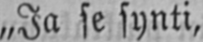„Ja se synti,
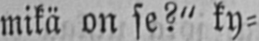mikä on se?" ky-
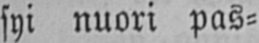syi nuori pas-
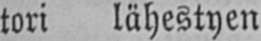tori lähestyen
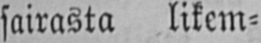sairasta likem-
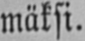mäksi.
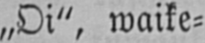„Oi", waike-
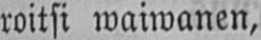roitsi waiwanen,
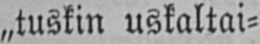„tuskin uskaltai-
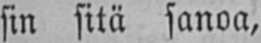sin sitä sanoa,
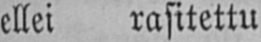ellei rasitettu
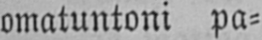omatuntoni pa-
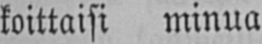koittaisi minua
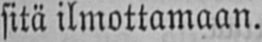sitä ilmottamaan.
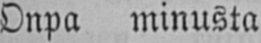Onpa minusta
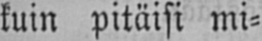kuin pitäisi mi-
